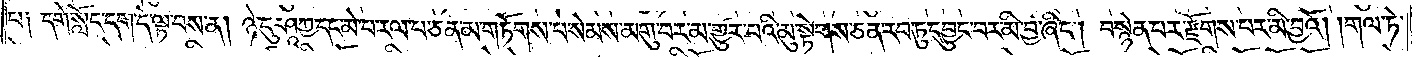པ༑ དགེ་སློང་དག་དེ་ལྟ་བས་ན། ཉེ་དུ་ཤཱཀྱ་དང་མེ་པ་རལ་པ་ཅན་མ་གཏོགས་པ་སེམས་མགུ་བར་མ་གྱུར་པའི་མུ་སྟེགས་ཅན་རབ་ཏུ་དབྱུང་བར་མི་བྱ་ཞིང༌། བསྙེན་པར་རྫོགས་པར་མི་བྱའོ། །གལ་ཏེ་
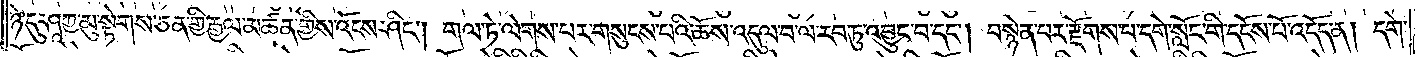ཉེ་དུ་ཤཱཀྱ་མུ་སྟེགས་ཅན་གྱི་རྒྱལ་མཚན་གྱིས་འོངས་ཤིང༌། གལ་ཏེ་ལེགས་པར་གསུངས་པའི་ཆོས་འདུལ་བ་རབ་ཏུ་འབྱུང་བ་དང༌། བསྙེན་པར་རྫོགས་པ་དགེ་སློང་གི་དངོས་པོ་འདོད་ན། དགེ་
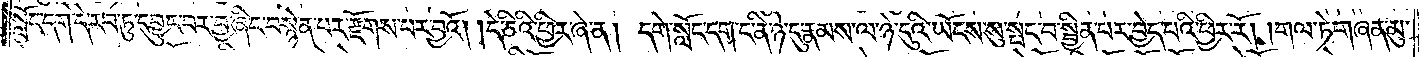སློང་དག་དེ་རབ་ཏུ་དབྱུང་བར་བྱ་ཞིང་བསྙེན་པར་རྫོགས་པར་བྱའོ། །དེ་ཅིའི་ཕྱིར་ཞེ་ན། དགེ་སློང་དག་ང་ནི་ཉེ་དུ་རྣམས་ལ་ཉེ་དུའི་ཡོངས་སུ་སྤང་བ་སྦྱིན་པར་བྱེད་པའི་ཕྱིར་རོ། །གལ་ཏེ་གཞན་མུ་
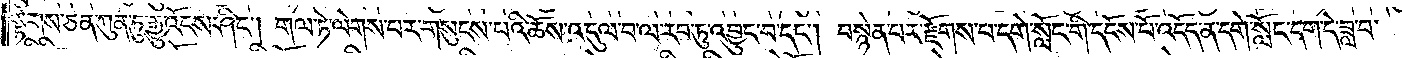སྟེགས་ཅན་ཀུན་ཏུ་རྒྱུ་འོངས་ཤིང༌། གལ་ཏེ་ལེགས་པར་གསུངས་པའི་ཆོས་འདུལ་བ་ལ་རབ་ཏུ་འབྱུང་བ་དང༌། བསྙེན་པར་རྫོགས་པ་དགེ་སློང་གི་དངོས་པོ་འདོད་ན་དགེ་སློང་དག་དེ་ཟླ་བ་
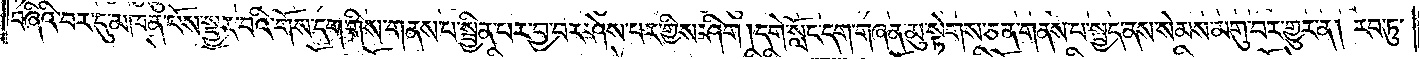བཞིའི་བར་དུ་མཁན་པོས་སྦྱར་བའི་གོས་དག་གིས་གནས་པ་སྦྱིན་པར་བྱ་བར་ཤེས་པར་གྱིས་ཤིག །དགེ་སློང་དག་གཞན་མུ་སྟེགས་ཅན་གནས་པ་སྤྱད་ནས་སེམས་མགུ་བར་གྱུར་ན། རབ་ཏུ་
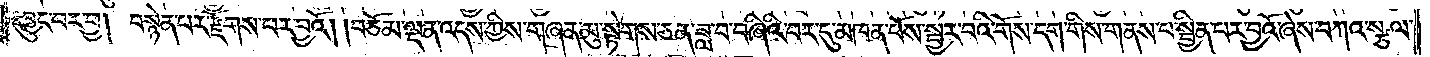དབྱུང་བར་བྱ། བསྙེན་པར་རྫོགས་པར་བྱའོ། །བཅོམ་ལྡན་འདས་ཀྱིས་གཞན་མུ་སྟེགས་ཅན་ཟླ་བ་བཞིའི་བར་དུ་མཁན་པོས་སྦྱར་བའི་གོས་དག་གིས་གནས་པ་སྦྱིན་པར་བྱའོ་ཞེས་བཀའ་སྩལ་
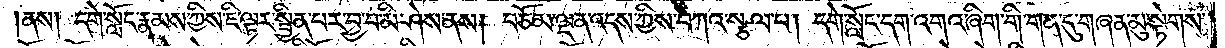ནས། དགེ་སློང་རྣམས་ཀྱིས་ཇི་ལྟར་སྦྱིན་པར་བྱ་བ་མི་ཤེས་ནས། བཅོམ་ལྡན་འདས་ཀྱིས་བཀའ་སྩལ་པ། དགེ་སློང་དག་འགའ་ཞིག་གི་གན་དུ་གཞན་མུ་སྟེགས་
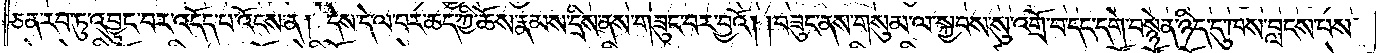ཅན་རབ་ཏུ་འབྱུང་བར་འདོད་པ་འོངས་ན། དེས་དེ་ལ་བར་ཆད་ཀྱི་ཆོས་རྣམས་དྲིས་ནས་གཟུང་བར་བྱའོ། །བཟུང་ནས་གསུམ་ལ་སྐྱབས་སུ་འགྲོ་བ་དང་དགེ་བསྙེན་ཉིད་དུ་ཁས་བླངས་པས་
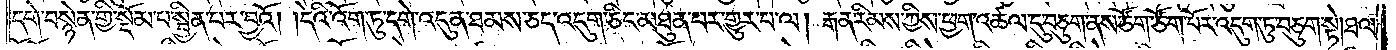དགེ་བསྙེན་གྱི་སྡོམ་པ་སྦྱིན་པར་བྱའོ། །དེའི་འོག་ཏུ་དགེ་འདུན་ཐམས་ཅད་འདུག་ཅིང་མཐུན་པར་གྱུར་པ་ལ། རྒན་རིམས་ཀྱིས་ཕྱག་འཚལ་དུ་བཅུག་ནས་ཙོག་ཙོག་པོར་འདུག་ཏུ་བཅུག་སྟེ། ཐལ་
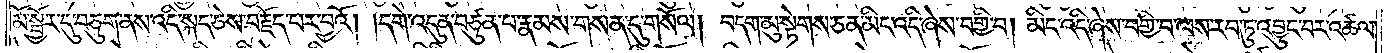མོ་སྦྱོར་དུ་བཅུག་ནས་འདི་སྐད་ཅེས་བརྗོད་པར་བྱའོ། །དགེ་འདུན་བཙུན་པ་རྣམས་གསན་དུ་གསོལ། བདག་མུ་སྟགས་ཅན་མིང་འདི་ཞེས་བགྱི་བ། མིང་འདི་ཞེས་བགྱི་བ་ལས་རབ་ཏུ་འབྱུང་བར་འཚལ་
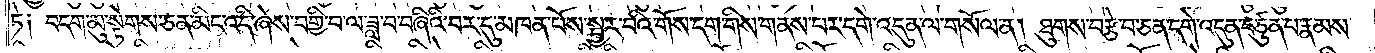ཏེ༑ བདག་མུ་སྟེགས་ཅན་མིང་འདི་ཞེས་བགྱི་བ་ལ་ཟླ་བ་བཞིའི་བར་དུ་མཁན་པོས་སྦྱར་བའི་གོས་དག་གིས་གནས་པར་དགེ་འདུན་ལ་གསོལ་ན། ཐུགས་བརྩེ་བ་ཅན་དགེ་འདུན་བཙུན་པ་རྣམས་
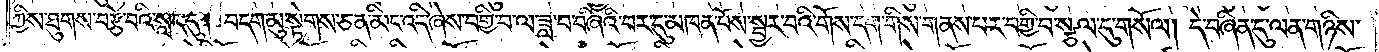ཀྱིས་ཐུགས་བརྩེ་བའི་སླད་དུ། བདག་མུ་སྟེགས་ཅན་མིང་འདི་ཞེས་བགྱི་བ་ལ་ཟླ་བ་བཞིའི་བར་དུ་མཁན་པོས་སྦྱར་བའི་གོས་དག་གིས་གནས་པར་བགྱི་བ་སྩལ་དུ་གསོལ། དེ་བཞིན་དུ་ལན་གཉིས་
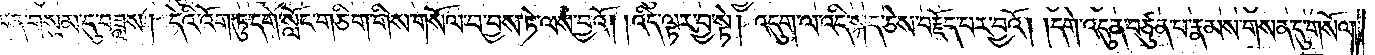ལན་གསུམ་དུ་བཟླས། དེའི་འོག་ཏུ་དགེ་སློང་གཅིག་གིས་གསོལ་བ་བྱས་ཏེ་ལས་བྱའོ། །འདི་ལྟར་བྱ་སྟེ། འདུག་ལ་འདི་སྐད་ཅེས་བརྗོད་པར་བྱའོ། །དགེ་འདུན་བཙུན་པ་རྣམས་གསན་དུ་གསོལ་
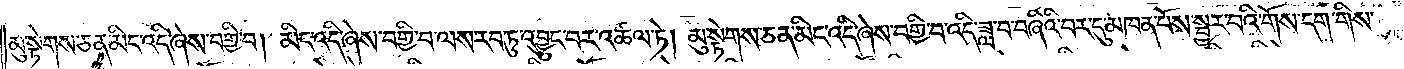མུ་སྟེགས་ཅན་མིང་འདི་ཞེས་བགྱི་བ། མིང་འདི་ཞེས་བགྱི་བ་ལས་རབ་ཏུ་འབྱུང་བར་འཚལ་ཏེ། མུ་སྟེགས་ཅན་མིང་འདི་ཞེས་བགྱི་བ་འདི་ཟླ་བ་བཞིའི་བར་དུ་མཁན་པོས་སྦྱར་བའི་གོས་དག་གིས་
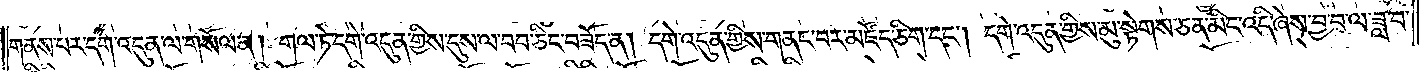གནས་པར་དགེ་འདུན་ལ་གསོལ་ན། གལ་ཏེ་དགེ་འདུན་གྱིས་དུས་ལ་བབ་ཅིང་བཟོད་ན། དགེ་འདུན་གྱིས་གནང་བར་མཛོད་ཅིག་དང༌། དགེ་འདུན་གྱིས་མུ་སྟེགས་ཅན་མིང་འདི་ཞེས་བྱ་བ་ལ་ཟླ་བ་
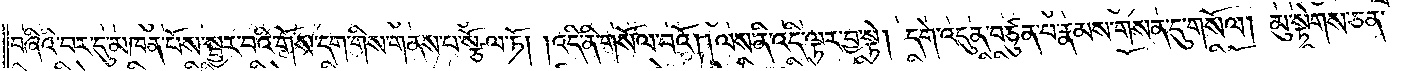བཞིའི་བར་དུ་མཁན་པོས་སྦྱར་བའི་གོས་དག་གིས་གནས་པ་སྩོལ་ཏོ། །འདི་ནི་གསོལ་བའོ། །ལས་ནི་འདི་ལྟར་བྱ་སྟེ། དགེ་འདུན་བཙུན་པ་རྣམས་གསན་དུ་གསོལ། མུ་སྟེགས་ཅན་
